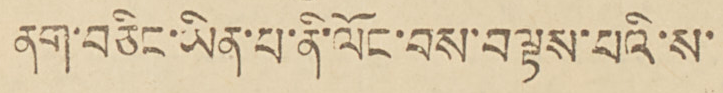ནག་བཅིང་ཡིན་པ་ནི་ལོང་བས་བལྟས་པའི་ས་
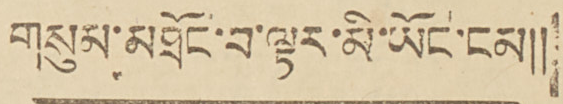གསུམ་མཐོང་བ་ལྟར་མི་ཡོང་ངམ།།
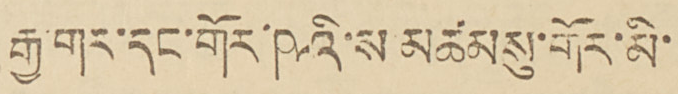རྒྱ་གར་དང་གོར་ཥའི་ས་མཚུམསུ་གོར་མི་
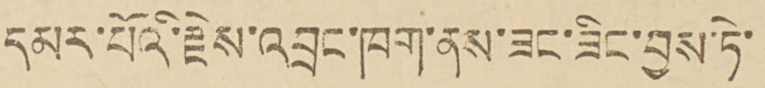དམར་པོའི་རྗེས་འབྲིང་ཁག་ནས་ཟང་ཟིང་བྱས་ཏེ་
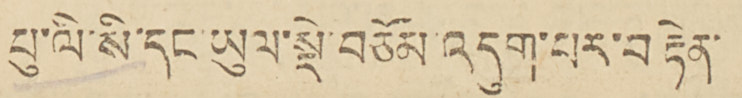པུ་ལི་སི་དང་ཡུལ་སྡེ་བཅོམ་འདུག་པར་བརྟེན་
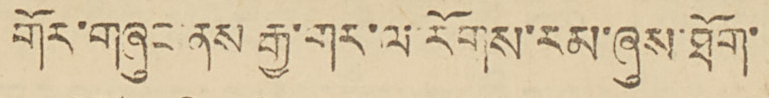གོར་གཞུང་ནས་རྒྱ་གར་ལ་རོགས་རམ་ཞུས་ཐོག་
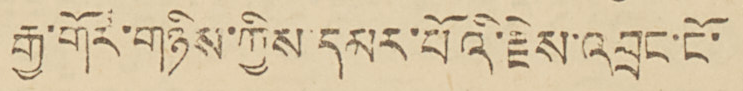རྒྱ་གར་གཉིས་ཀྱིས་དམར་པོའི་རྗེས་འབྲང་ངོ་
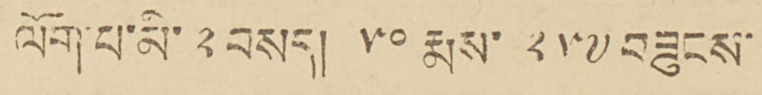ལོག་པ་མི་༢བསད། ༥༠ རྨས་ ༢༥༧བཟུངས་
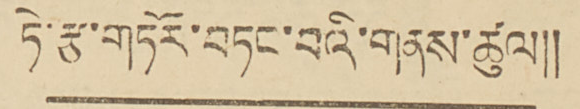ཏེ་རྩ་གཏོར་བཏང་བའི་གནས་ཚུལ།།
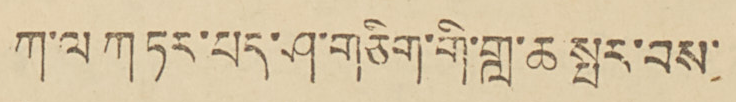ཀ་ལ ཀ ཏར་པད་གཅིག་གི་གླ་ཆ་སྤར་བས་
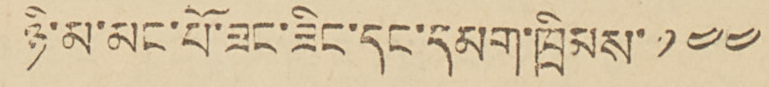ཉི་མ་མང་པོ་ཟང་ཟིང་དང་དམག་ཁྲིམས་༡༤༤
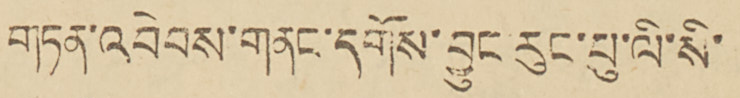གཏན་འབེབས་གནང་དགོས་བྱུང་རུང་པུ་ལི་སི་
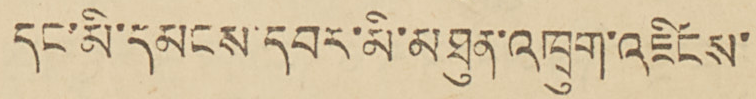དང་མི་དམངས་དབར་མི་མཐུན་འཁྲུག་འཛིངས་
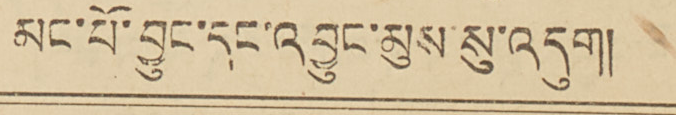མང་པོ་བྱུང་དང་འབྱུང་མུས་སུ་འདུག།།
